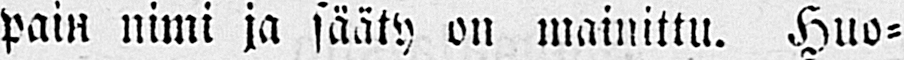pain nimi ja sääty on mainittu. Huo-
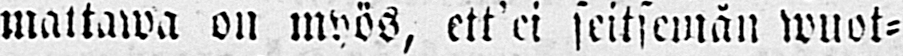mattawa on myös, ett’ei seitsemän wuot-
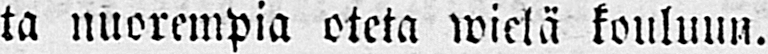ta nuorempia oteta wielä kouluun.
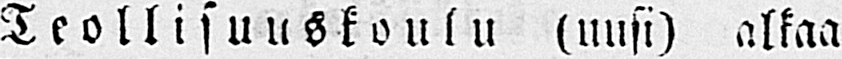Teollisuuskoulu (uusi) alkaa
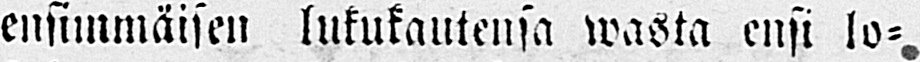ensimmäisen lukukautena wasta ensi lo-.
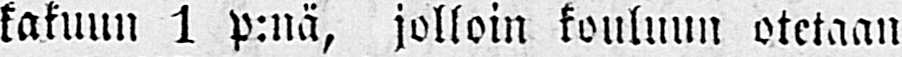katuun 1 p:nä, jolloin kouluun otetaan
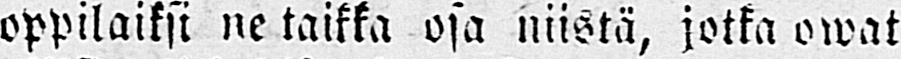oppilaiksi ne taikka osa niistä, jotka owat
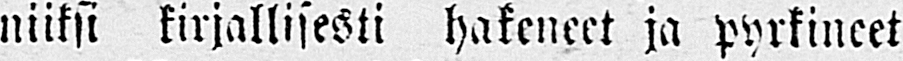niiksi kirjallisesti hakeneet ja pyrkineet
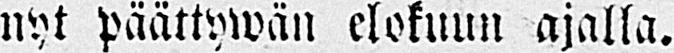nyt päättywän elokuun ajalla.
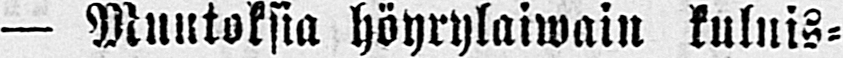— Muutoksia höyrylaiwain kuluis-
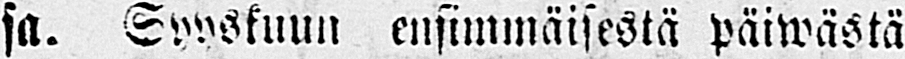sa. Syyskuun ensimmäisestä päiwästä
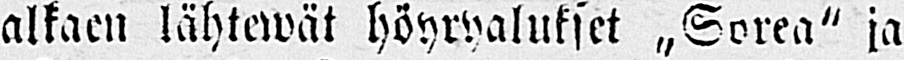alkaen lähtewät höyryalukset „Sorea" ja
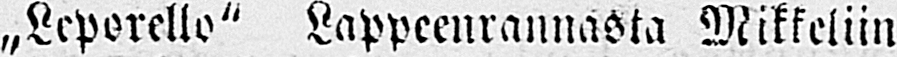„Leporello" Lappeenrannasta Mikkeliin
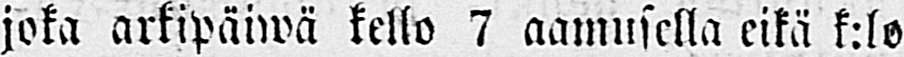joka arkipäiwä kello 7 aamusella eikä k:lo
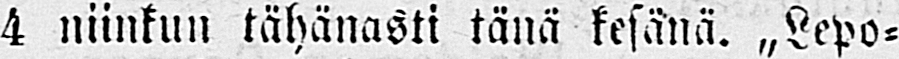4 niinkun tähänasti tänä kesänä. „Lepo-
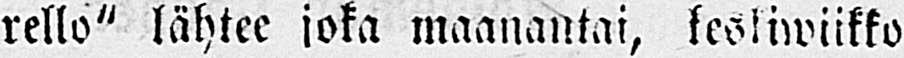rello" lähtee joka maanantai, keskiwiikko
